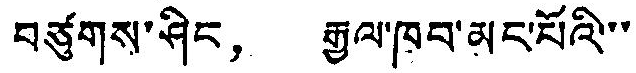བཙུགས་ཤིང， རྒྱལ་ཁབ་མང་པོའི་་་
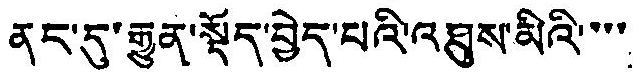ནང་དུ་རྒྱུན་སྡོད་བྱེད་པའི་འཐུས་མིའི་་་་
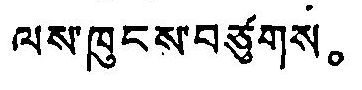ལས་ཁུངས་བཙུགས。
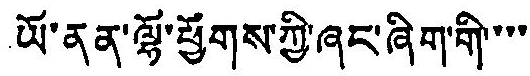ཡོ་ནན་ལྷོ་ཕྱོགས་ཀྱི་ཞང་ཞིག་གི་་་་
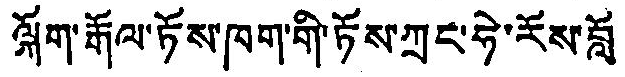ལྐོག་རྒོལ་ཏོས་ཁག་གི་ཏོས་ཀྲུང་ཧེ་རོས་བློ
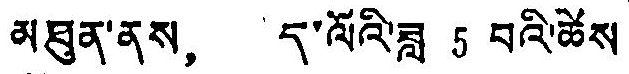མཐུན་ནས， ད་ལོའི་ཟླ 5 བའི་ཚེས
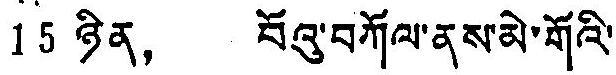15 ཉིན， བོའུ་བཀོལ་ནས་མེ་གོའི་
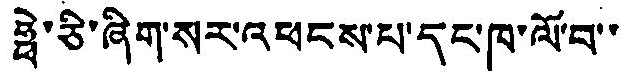ཧྥེ་ཅི་ཞིག་སར་འཕངས་པ་དང་ཁ་ལོ་བ་་
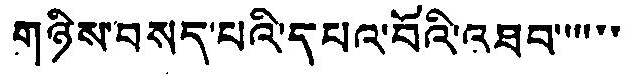གཉིས་བསད་པའི་དཔའ་བོའི་འཐབ་་་་་་
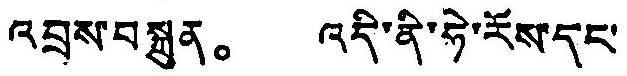འབྲས་བསྐྲུན。 འདི་ནི་ཧེ་རོས་དང་
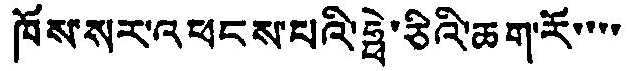ཁོས་སར་འཕངས་པའི་ཧྲེ་ཅིའི་ཆག་རོ་་་་
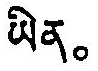ཡིན。
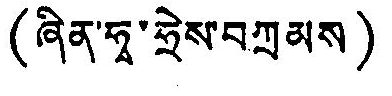(ཞིན་ཧྭ་ཧྲེས་བཀྲམས)
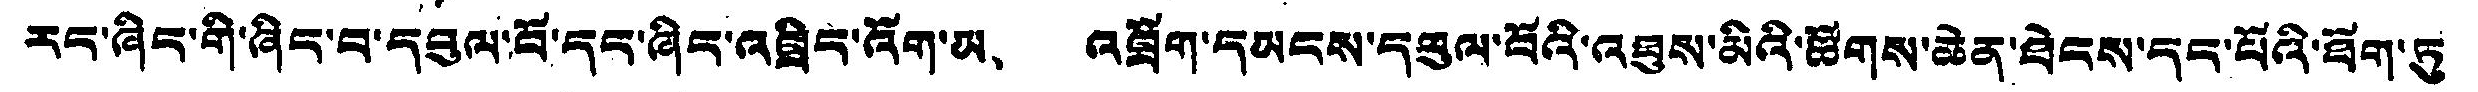རད་ཞིང་གི་ཞིང་བ་དབུལ་བོ་དང་ཞིང་འཁྲིད་འོག་མ、 འབྲོག་དམངས་དབུལ་བོའི་འཐུས་མིའི་ཚོགས་ཆེན་ཐེངས་དང་པོའི་ཐོག་ཏུ
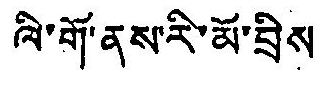ལི་གོ་ནས་རི་མོ་བྲིས།
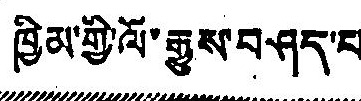ཁྱིམ་གྱི་ལོ་རྒྱུས་བཤད་པ
